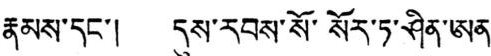རྣམས་དང་། དུས་རབས་སོ་སོར་ཏ་ཤིན་ཨན་
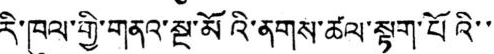རི་ཁུལ་གྱི་གནའ་སྔ་མོའི་ནགས་ཚལ་སྟུག་པོའི་་
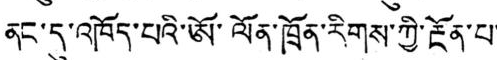ནང་དུ་འཁོད་པའི་ཨོ་ལོན་ཁྲོན་རིགས་ཀྱི་རྔོན་པ་
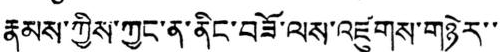རྣམས་ཀྱིས་ཀྱང་ན་ནིང་བཟོ་ལས་འཛུགས་གཉེར་་
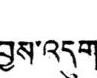བྱས་འདུག
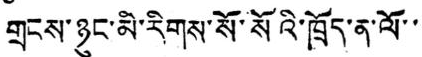གྲངས་ཉུང་མི་རིགས་སོ་སོའི་ཁྲོད་ན་ལོ་་
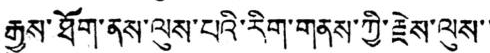རྒྱུས་ཐོག་ནས་ལུས་པའི་རིག་གནས་ཀྱི་རྗེས་ལུས་་
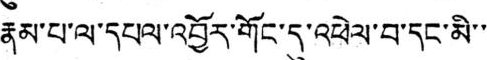རྣམ་པ་ལ་དཔལ་འབྱོར་གོང་དུ་འཕེལ་བ་དང་མི་་
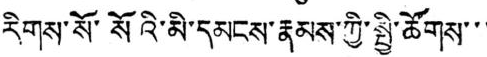རིགས་སོ་སོའི་མི་དམངས་རྣམས་ཀྱི་སྤྱི་ཚོགས་་་
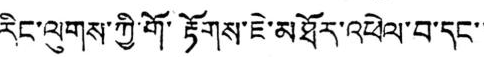རིང་ལུགས་ཀྱི་གོ་རྟོགས་ཇེ་མཐོར་འཕེལ་བ་དང་་
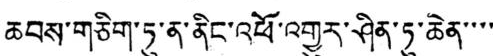ཆབས་གཅིག་ཏུ་ན་ནིང་འཕོ་འགྱུར་ཤིན་ཏུ་ཆེན་་་་
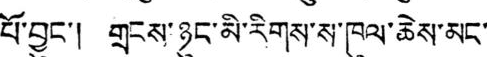པོ་བྱུང་། གྲངས་ཉུང་མི་རིགས་ས་ཁུལ་ཆེས་མང་
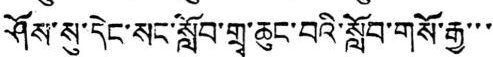ཤོས་སུ་དེང་སང་སློབ་གྲྭ་ཆུང་བའི་སློབ་གསོ་རྒྱ་་་
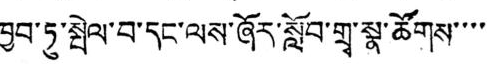ཁྱབ་ཏུ་སྤེལ་བ་དང་ལས་ཞོར་སློབ་གྲྭ་སྣ་ཚོགས་་་་
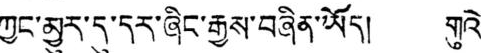ཀྱང་མྱུར་དུ་དར་ཞིང་རྒྱས་བཞིན་ཡོད། གུའེ་
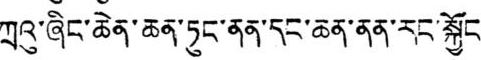ཀྲའུ་ཞིང་ཆེན་ཆན་ཏུང་ནན་དང་ཆན་ནན་རང་སྐྱོང་
